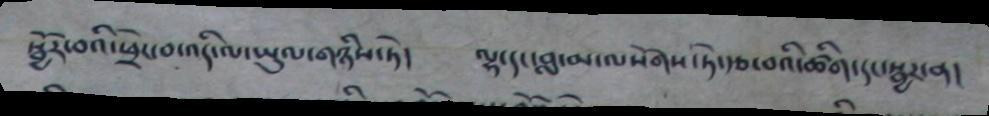སྦྱོར་བའི་ཕྲེང་བ་འདི་ལ་ཡུལ་གཉིས་ཏེ། ལྷ་དང་བླ་མ་ལསོགས་ཏེ་རྩ་བའི་ཚིག་དང་སྦྱར་ན།
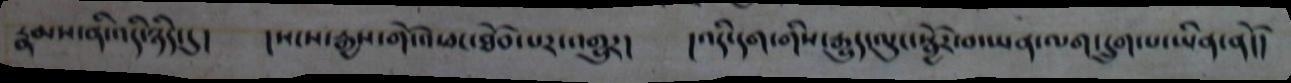རྣམས་ནི་འདི་ཉིད་དུ། །སངས་རྒྱས་གོ་འཕང་ཐོབ་པར་འགྱུར། །འདི་དག་གིས་རྒྱུད་ལུང་སྦྱོར་བ་ཡན་ལག་དྲུག་པ་ཡིན་ནོ།།
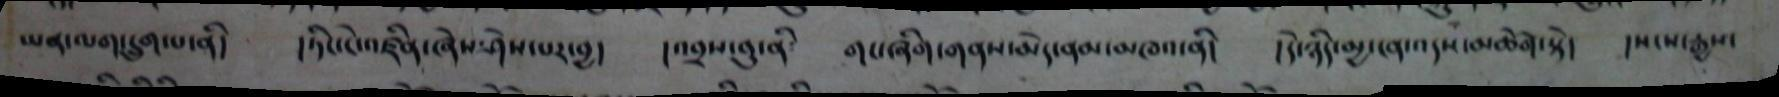ཡན་ལག་དྲུག་པ་ནི། །ཏིང་ངེ་འཛིན་ཞེས་ཤེས་པར་བྱ། །འབྲས་བུ་ནི གང་ཞིག་གནས་མེད་ནམ་མཁའ་ནི། །དེ་ཉིད་མྱ་ངན་འདས་མཆོག་སྟེ། །སངས་རྒྱས་
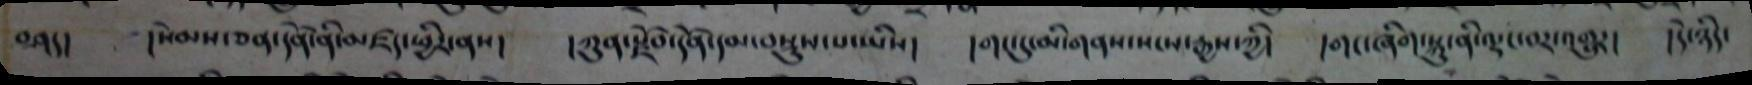བཤད། །སེམས་ཅན་དོན་ནི་མཛད་ཕྱིར་ནས། །ཀུན་སྫོབ་དོན་དམ་བསྡུས་པ་ཡིས། །གང་དུ་མི་གནས་སངས་རྒྱས་ཀྱི། །གང་ཞིག་སྐུ་ནི་ལྡང་བར་འགྱུར། །དེ་ཉིད་
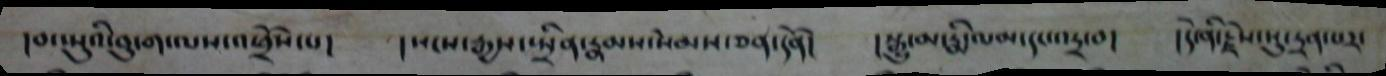།བད་སུའི་བུ་ག་ལས་འཕྲོས་པ། །སངས་རྒྱས་སྤྲིན་རྣམས་སེམས་ཅན་དོན། །སྒྱུ་མ་རྨི་ལམ་དང་འདྲ་བ། །དེ་ནི་རྗེས་སུ་དྲན་པར་
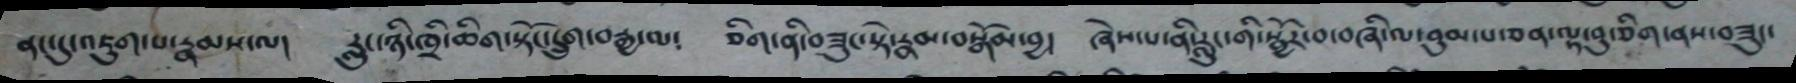ནང་དུ་འཇུག་པ་རྣམས་ལ། རླུང་ཉི་ཁྲི་ཆིག་སྟོང་དྲུག་བརྒྱ་ལ༴ ཅིག་ནི་བཟུང་སྟེ་རྣམ་བསྒོམ་བྱ། ཞེས་པ་ནི་རླུང་གི་སྦྱོར་བ་བཞི་ལ་བུམ་པ་ཅན་ལྟ་བུ་ཅིག་ནས་བཟུང་
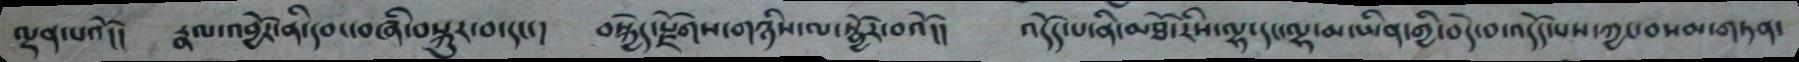ལྡན་པའོ།། རྣལ་འབྱོར་ནི་དབང་བཞི་བསྐུར་བ་དང་། བསྐྱེད་སྫོགས་གཉིས་ལ་སྦྱོར་བའོ།། འདོད་པ་ནི་མཐོ་རིས་ལྷ་དང་ལྷ་མ་ཡིན་གྱི་བདེ་བ་འདོད་པས་ཀྱང་བསམ་གཏན་
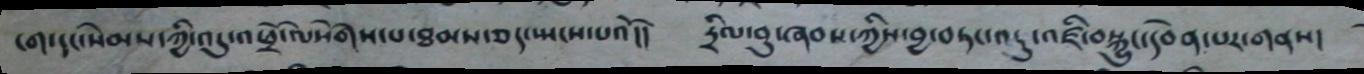ངག་དང་སེམས་ཀྱི་འདུ་འཕྲོ་ལསོགས་པ་ཐམས་ཅད་སྤངས་པའོ།། དྲིལ་བུ་ཞབས་ཀྱིས་བྱ་བཏང་འདུ་འཛི་བསྐྱུང་དབེན་པར་གནས།
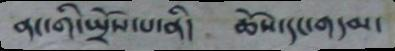ནང་གི་སྤྲོས་པ་ནི། ཆོས་དང་གདམ་
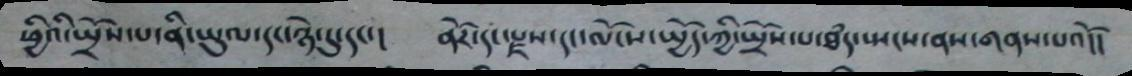ཕྱིའི་སྤྲོས་པ་ནི་ཡུལ་དང་ཉེ་དུ་དང་། ནོར་དང་སྫས་དང་ལོངས་སྤྱོད་ཀྱི་སྤྲོས་པ་ཐཾད་སྤངས་ནས་གནས་པའོ།།
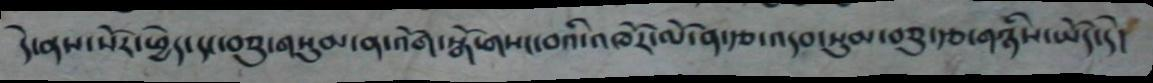དེ་ནས་སོར་ཕྱེད་དང་བཅུ་གསུམ་ན་འོག་སྒོ་གསང་བའི་འཁོར་ལོ་ན་རྩ་འདབ་སུམ་བཅུ་རྩ་གཉིས་ཡོད་དོ།
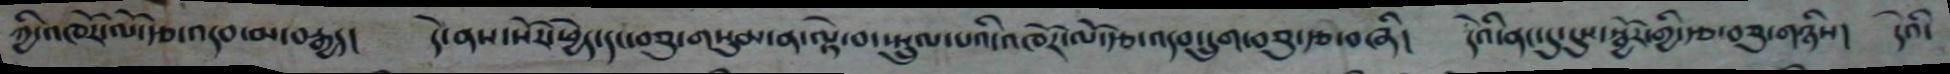ཀྱི་འཁོར་ལོ་རྩ་འདབ་མ་བརྒྱད། དེ་ནས་སོར་ཕྱེད་དང་བཅུ་གསུམ་ན་ལྟེ་བ་སྤྲུལ་པའི་འཁོར་ལོ་རྩ་འདབ་དྲུག་བཅུ་རྩ་བཞི། དེའི་ནང་དུ་དུས་སྦྱོར་གྱི་རྩ་བཅུ་གཉིས། དེའི་
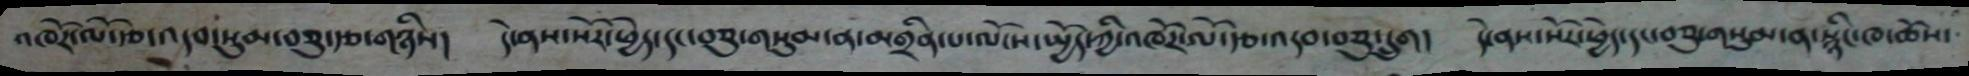འཁོར་ལོ་རྩ་འདབ་སུམ་བཅུ་རྩ་གཉིས། དེ་ནས་སོར་ཕྱེད་དང་བཅུ་གསུམ་ན་མགྲིན་པ་ལོངས་སྤྱོད་ཀྱི་འཁོར་ལོ་རྩ་འདབ་བཅུ་དྲུག། དེ་ནས་སོར་ཕྱེད་དང་བཅུ་གསུམ་ན་སྙིང་ཁ་ཆོས་
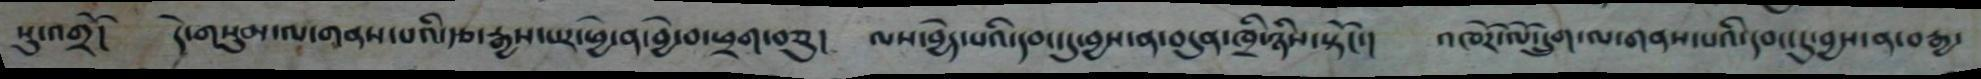སུ་འགྲི། དེ་གསུམ་ལ་གནས་པའི་རྩ་རྒྱས་པར་ཕྱེ་ན་བྱེ་བ་ཕྲག་བཅུ། ལས་བྱེད་པའི་དབང་དུ་བྱས་ན་བདུན་ཁྲི་ཉིས་སྟོང་། འཁོར་ལོ་དྲུག་ལ་གནས་པའི་དབང་དུ་བྱས་ན་བརྒྱ་
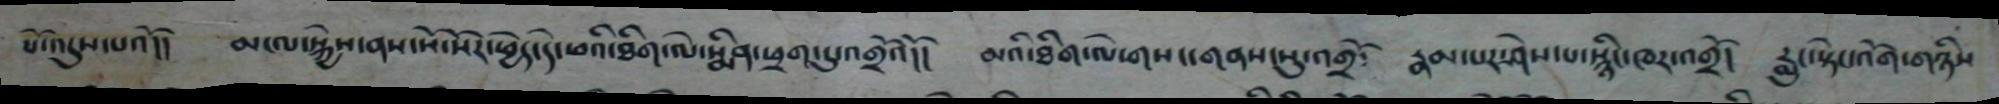པོ་འདུས་པའོ།། མངལ་སྐྱེས་ནས་སོ་སོར་ཕྱེད་དེ་ཕའི་ཐིག་ལེ་སྨིན་ཕྲག་དུ་འགྲོའོ།། མའི་ཐིག་ལེ་གསང་གནས་སུ་འགྲོ༴ རྣམ་པར་ཤེས་པ་སྙིང་ཁར་འགྲོ། རླུང་སྟེང་འོག་གཉིས
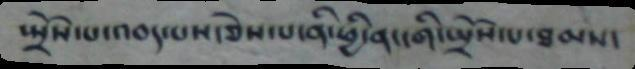སྤྲོས་པ་འབད་པས་ཅེས་པ་ནི་ཕྱི་ནང་གི་སྤྲོས་པ་ཐམས་
